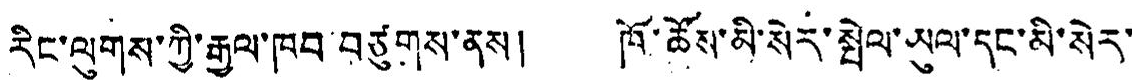རིང་ལུགས་ཀྱི་རྒྱལ་ཁབ་བཙུགས་ནས། ཁོ་ཚོས་མི་སེར་སྤེལ་ཡུལ་དང་མི་སེར་
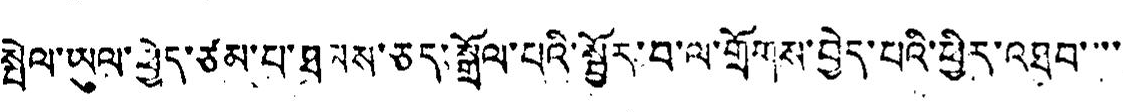སྤེལ་ཡུལ་ཕྱེད་ཙམ་པ་ཐམས་ཅད་སྒྲོལ་པའི་སྦྱོར་བ་ལ་གྲོགས་བྱེད་པའི་ཕྱིར་འཐབ་་་་
